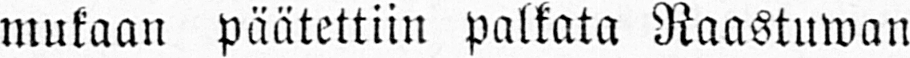mukaan päätettiin palkata Raastuwan
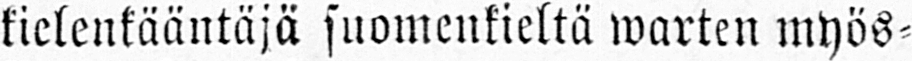kielenkääntäjä suomenkieltä varten myös-
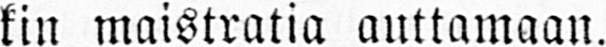kin maistratia auttamaan.
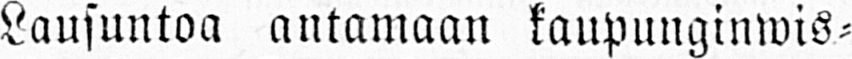Lausuntoa antamaan kaupunginwis-
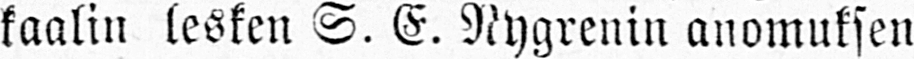kaalin lesken S. E. Nygrenin anomuksen
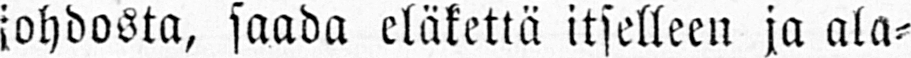johdosta, saada eläkettä itselleen ja ala-
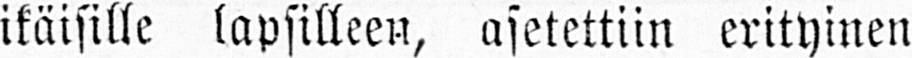ikäisille lapsilleen, asetettiin erityinen
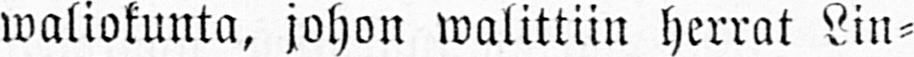waliokunta, johon walittiin herrat Lin-
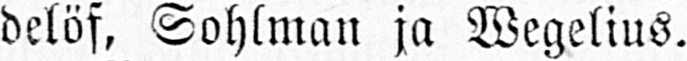delöf, Sohlman ja Wegelius.
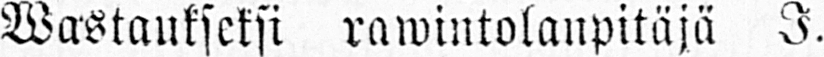Wustaukseksi rawintolanpitäjä I.
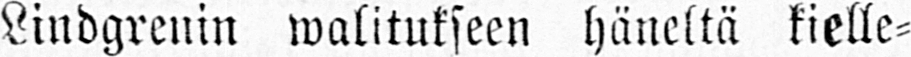Lindgrenin walitukseen häneltä kielle-
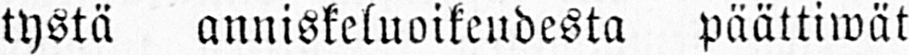tystä anniskeluoikeudesta päättiwät
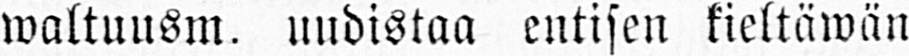waltuusm. uudistaa entisen kieltäwän
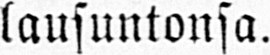lausuntonsa.
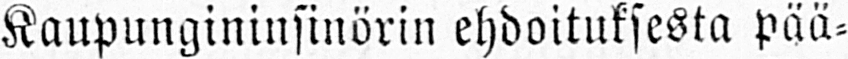Kaupungininsinörin ehdotuksesta pää-
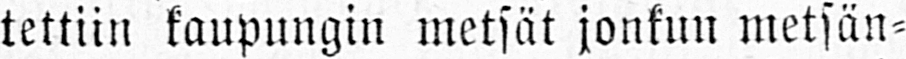tettiin kaupungin metsät jonkun metsän-
